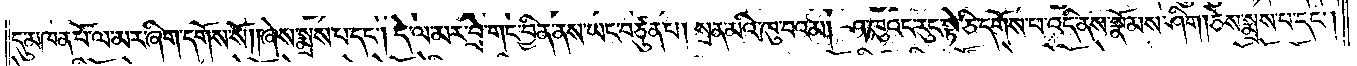དུ་མཁན་པོ་ལ་མར་ཞིག་དགོས་སོ། །ཞེས་སྨྲས་པ་དང༌། དེ་ལ་མར་བྲེ་གང་བྱིན་ནས་ཡང་བཙུན་པ། སྲན་མའི་ཁུ་བའམ། ཤ་ཁུའང་རུང་སྟེ་ཅི་དགོས་པ་འདི་ནས་སྣོམས་ཤིག །ཅེས་སྨྲས་པ་དང༌།
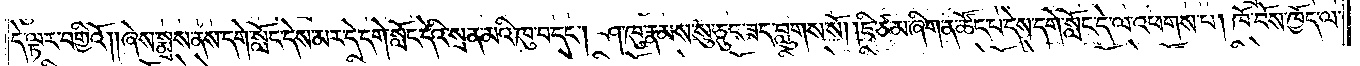དེ་ལྟར་བགྱིའོ། །ཞེས་སྨྲས་ནས་དགེ་སློང་དེས་མར་དེ་དགེ་སློང་དེའི་སྲན་མའི་ཁུ་བ་དང༌། ཤ་ཁུ་རྣམས་སུ་ཅུང་ཟད་བླུགས་སོ། །ཇི་ཙམ་ཞིག་ན་ཚོང་པ་དེས་དགེ་སློང་དེ་ལ་འཕགས་པ། ཁོ་བོས་ཁྱོད་ལ་
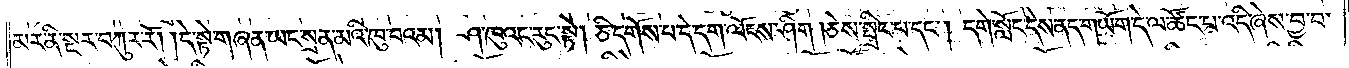མར་ནི་སྔར་བཀུར་རོ། །དེ་སྟེ་གཞན་ཡང་སྲན་མའི་ཁུ་བའམ། ཤ་ཁུའང་རུང་སྟེ། ཅི་དགོས་པ་དེ་དག་ལོངས་ཤིག །ཅེས་སྤྲིང་པ་དང༌། དགེ་སློང་དེས་ནད་གཡོག་དེ་ལ་ཚོང་པ་འདི་ཞེས་བྱ་བ་
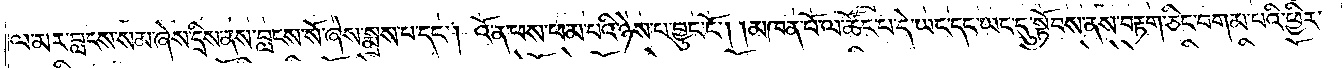ལ་མར་བླངས་སམ་ཞེས་དྲིས་ནས་བླངས་སོ་ཞེས་སྨྲས་པ་དང༌། འོ་ན་ཕས་ཕམ་པའི་ཉེས་པ་བྱུང་ངོ༌། །མཁན་པོ་ལ་ཚོང་པ་དེ་ཡང་དང་ཡང་དུ་སྟོབས་ནས་བརྟག་ཅིང་བགམ་པའི་ཕྱིར་
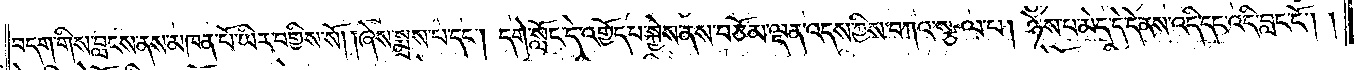བདག་གིས་བླངས་ནས་མཁན་པོ་ཡིར་བགྱིས་སོ། །ཞེས་སྨྲས་པ་དང༌། དགེ་སློང་དེ་འགྱོད་པ་སྐྱེས་ནས་བཅོམ་ལྡན་འདས་ཀྱིས་བཀའ་སྩལ་པ། ཉེས་པ་མེད་དེ་དེ་ནས་འདི་དང་འདི་བླང་ངོ༌། །
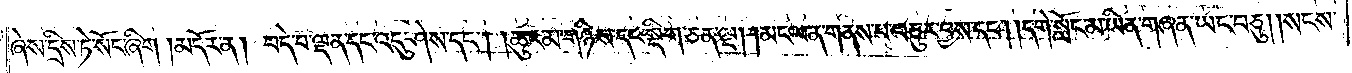ཞེས་དྲིས་ཏེ་སོང་ཞིག །མདོར་ན། བདེ་བ་ལྡན་དང་འདུ་ཤེས་དང༌། །ཆུང་མ་གཉིས་དང་སྡིག་ཅན་ལྔ། །མངལ་ན་གནས་པ་བཅུར་བྱས་དང༌། །དགེ་སློང་མ་ཡིན་གཞན་ཡང་བཅུ། །སངས་
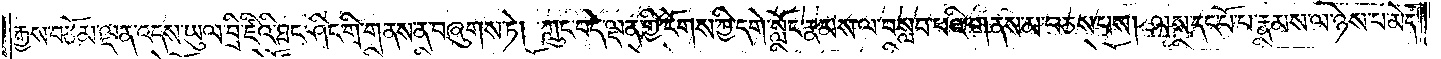རྒྱས་བཅོམ་ལྡན་འདས་ཡུལ་བྲི་ཛིའི་ཐང་ཤིང་གི་གནས་ན་བཞུགས་ཏེ། ཀླུང་བདེ་ལྡན་གྱི་ངོགས་ཀྱི་དགེ་སློང་རྣམས་ལ་བསླབ་པའི་གནས་མ་བཅས་པས། ལས་དང་པོ་པ་རྣམས་ལ་ཉེས་པ་མེད་
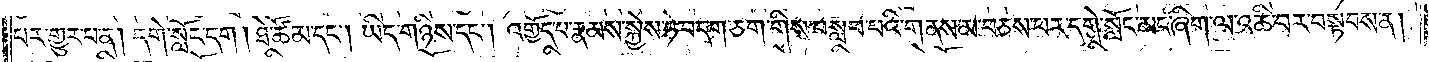པར་གྱུར་པ་ན། དགེ་སློང་དག །ཐེ་ཚོམ་དང༌། ཡིད་གཉིས་དང༌། འགྱོད་པ་རྣམས་སྐྱེས་ཏེ་བདག་ཅག་གིས་བསླབ་པའི་གནས་མ་བཅས་པར་དགེ་སློང་མང་ཞིག་ལ་འཆི་བར་བསྟབས་ན།
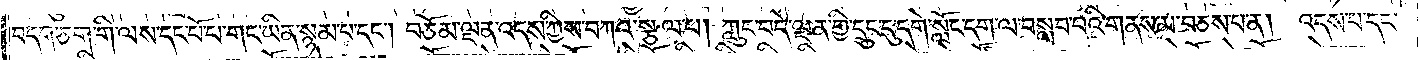བདག་ཅག་གི་ལས་དང་པོ་པ་གང་ཡིན་སྙམ་པ་དང༌། བཅོམ་ལྡན་འདས་ཀྱིས་བཀའ་སྩལ་པ། ཀླུང་བདེ་ལྡན་གྱི་དྲུང་དུ་དགེ་སློང་དག་ལ་བསླབ་པའི་གནས་མ་བཅས་པ་ན། འདས་པ་དང་
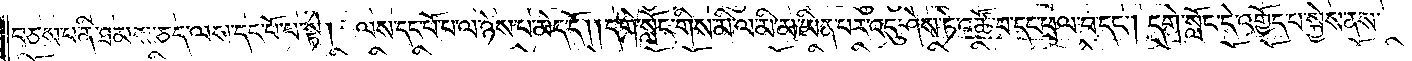བཅས་པ་ནི་ཐམས་ཅད་ལས་དང་པོ་པ་སྟེ། ལས་དང་པོ་པ་ལ་ཉེས་པ་མེད་དོ། །དགེ་སློང་གིས་མི་ལ་མི་མ་ཡིན་པར་འདུ་ཤེས་ཏེ་འཚོ་བ་དང་ཕྲལ་བ་དང༌། དགེ་སློང་དེ་འགྱོད་པ་སྐྱེས་ནས་
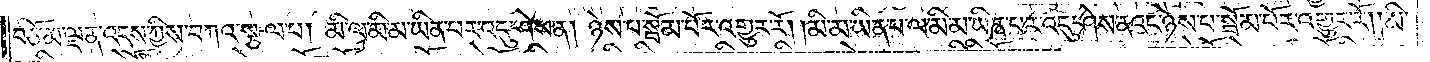བཅོམ་ལྡན་འདས་ཀྱིས་བཀའ་སྩལ་པ། མི་ལ་མི་མ་ཡིན་པར་འདུ་ཤེས་ན། ཉེས་པ་སྦོམ་པོར་འགྱུར་རོ། །མི་མ་ཡིན་པ་ལ་མི་མ་ཡིན་པར་འདུ་ཤེས་ནའང་ཉེས་པ་སྦོམ་པོར་འགྱུར་རོ། །མི་
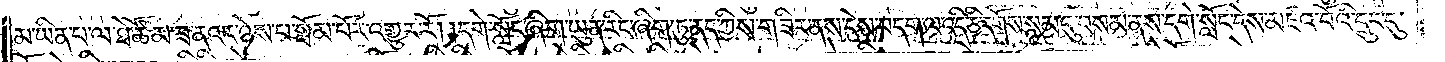མ་ཡིན་པ་ལ་ཐེ་ཚོམ་ཟ་ནའང་ཉེས་པ་སྦོམ་པོར་འགྱུར་རོ། །དགེ་སློང་ཞིག་ཡུན་རིང་ཞིག་ཏུ་ནད་ཀྱིས་གཟིར་ནས་དེས་བདག་ལ་འདི་ཅི་དགོས་སྙམ་དུ་བསམ་ནས་དགེ་སློང་དེས་མཛའ་བོའི་དྲུང་དུ་
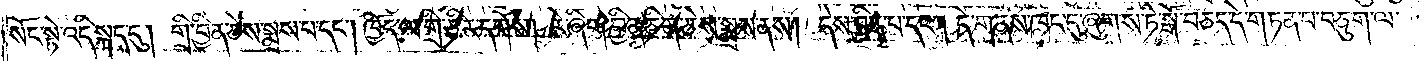སོང་སྟེ་འདི་སྐད་དུ། གྲི་བྱིན་ཅེས་སྨྲས་པ་དང༌། ཁྱོད་ལ་གྲི་ཅིར་དགོས། རེ་ཞིག་བྱིན་ཅིག་ཅེས་སྨྲས་ནས། དེས་བྱིན་པ་དང༌། དེ་གནས་ཁང་དུ་ཞུགས་ཏེ་སྒོ་བཅད་དེ་གཏན་པ་བཅུག་ལ་
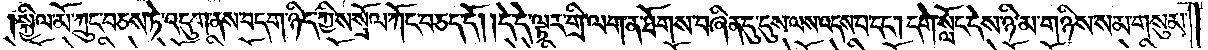སྐྱིལ་མོ་ཀྲུང་བཅས་ཏེ་འདུག་ནས་བདག་ཉིད་ཀྱིས་སྲོལ་ཀོང་བཅད་དོ། །དེ་དེ་ལྟར་གྲི་ལག་ན་ཐོགས་བཞིན་དུ་དུས་ལས་འདས་པ་དང༌། དགེ་སློང་དེས་ཉི་མ་གཉིས་སམ་གསུམ་
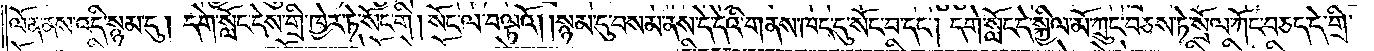ལོན་ནས་འདི་སྙམ་དུ། དགེ་སློང་དེས་གྲི་ཁྱེར་ཏེ་སོང་གི །སོང་ལ་བལྟའོ། །སྙམ་དུ་བསམ་ནས་དེ་དེའི་གནས་ཁང་དུ་སོང་བ་དང༌། དགེ་སློང་དེ་སྐྱིལ་མོ་ཀྲུང་བཅས་ཏེ་སྲོལ་ཀོང་བཅད་དེ་གྲི་
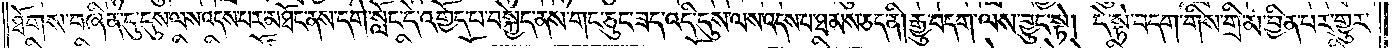ཐོགས་བཞིན་དུ་དུས་ལས་འདས་པར་མཐོང་ནས་དགེ་སློང་དེ་འགྱོད་པ་བསྐྱེད་ནས་གང་ཅུང་ཟད་འདི་དུས་ལས་འདས་པ་ཐམས་ཅད་ནི། རྒྱུ་བདག་ལས་བྱུང་སྟེ། དེ་སྟེ་བདག་གིས་གྲི་མ་བྱིན་པར་གྱུར་
